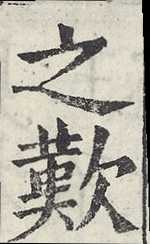之歎
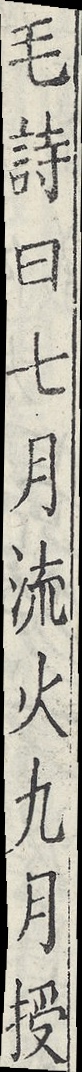毛詩曰七月流火九月授
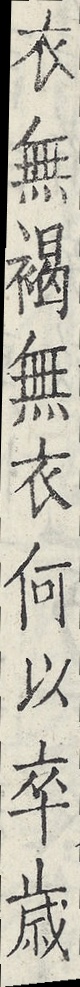衣無褐無衣何以卒歲
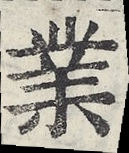業
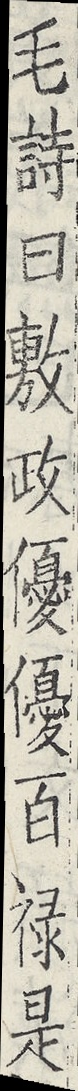毛詩曰敷政優優百祿是
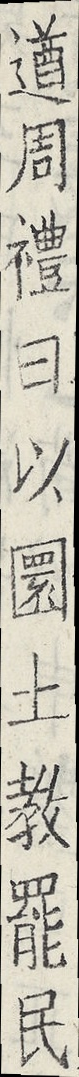遒周禮曰以圜土教罷民
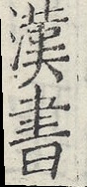漢書
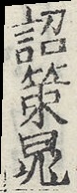詔策晁
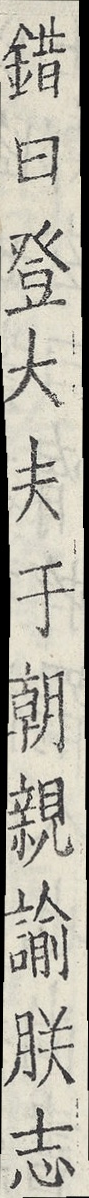錯曰登大夫于朝親諭朕志
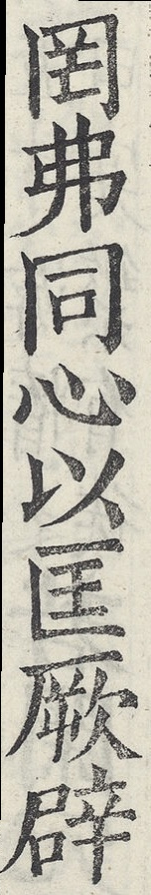罔弗同心以匡厥辟
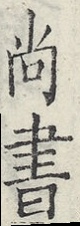尚書
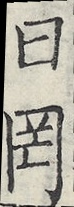曰罔
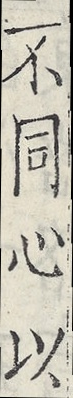不同心以
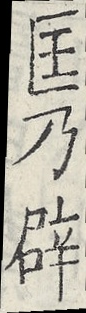匡乃辟
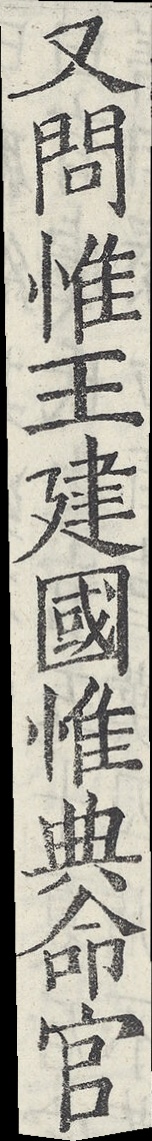又問惟王建國惟典命官
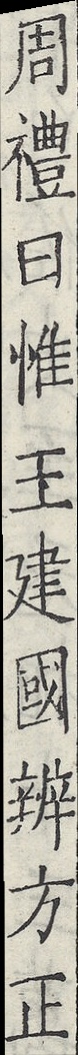周禮曰惟王建國辨方正
